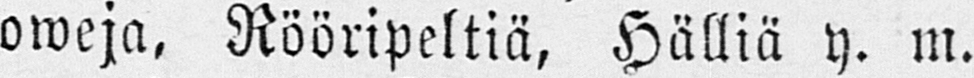olveja, Rööripeltiä, Hälliä y. m.
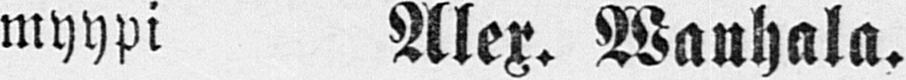myypi Alex. Mauhala.
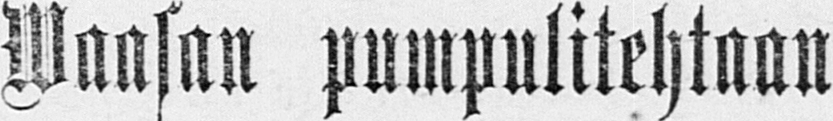Waasan pumpulitehtaan
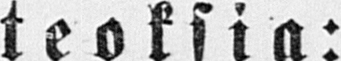teoksia:
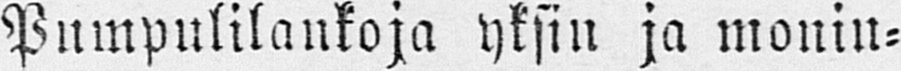Pumpulilankoja yksin ja monin-
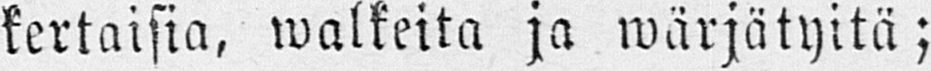kertaisia, malkeita ja märjätyitä;
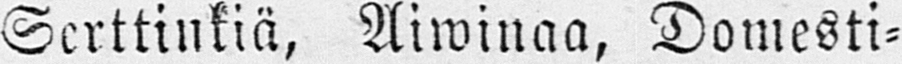Serttinkiä, Aiminaa, Domesti-
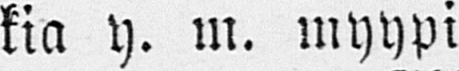kia y. m. myypi
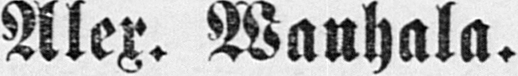Alex. Wanhala.
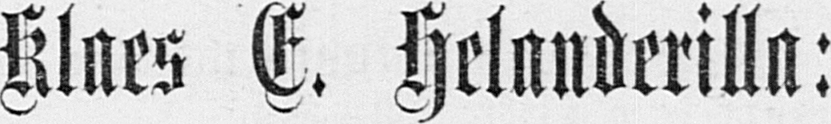Klaes E. Helanderilla:
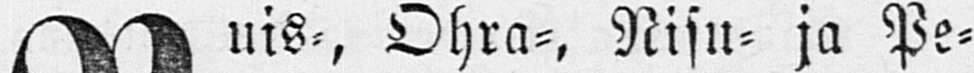Ruis-, Ohra-, Nisu- ja Pe-
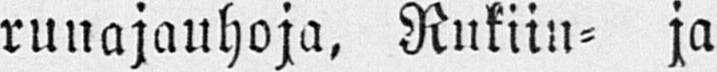runajauhoja, Rukiin- ja
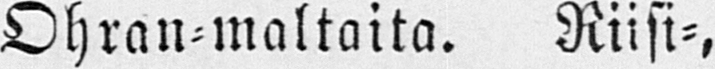Ohran-maltaita. Riisi-,
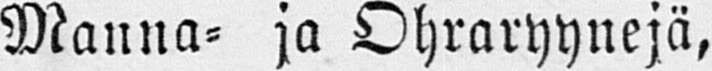Manna- ja Ohraryynejä,
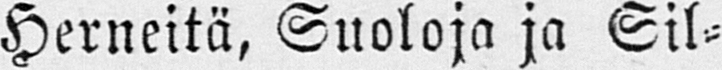Herneitä, Suoloja ja Sil-
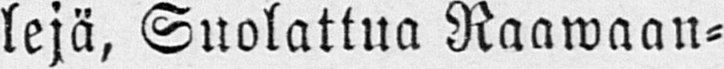lejä, Suolattua Raawaan-
